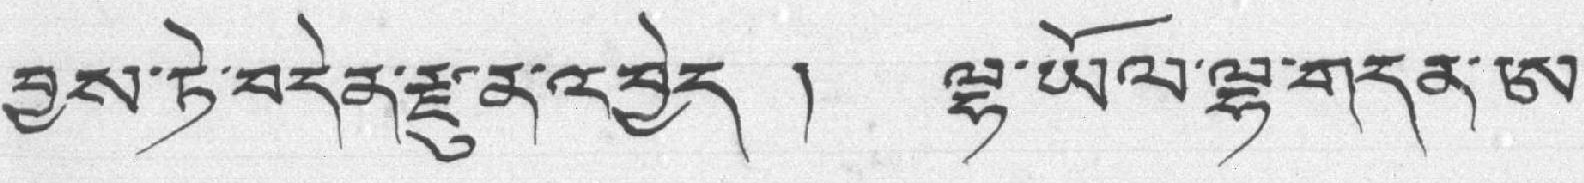བྱས་ཏེ་བདེན་རྫུན་འབྱེད ། ལྷ་ཡོལ་ལྷ་གདན་ཨ་
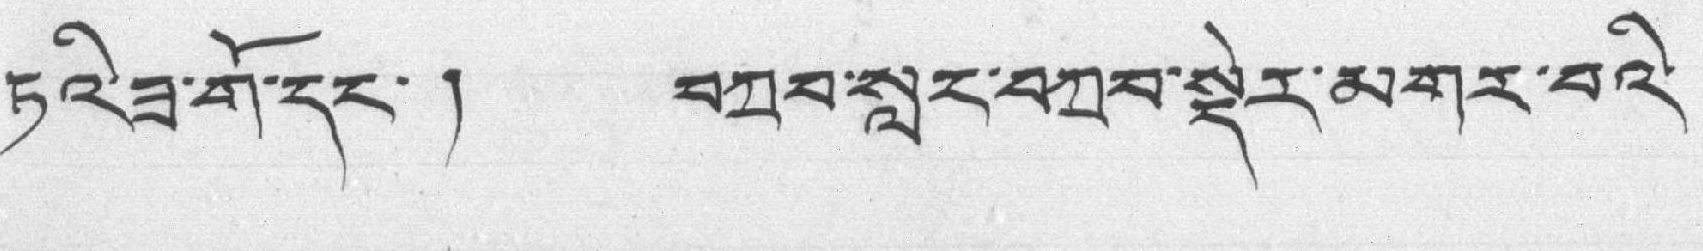ཏའི་ཟ་གོ་དང་། བཀྲབ་སླང་བཀྲབ་སྡེར་མགར་བའི་
